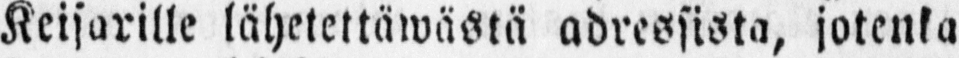Keisarille lähetettäwästä adressista, jotenka
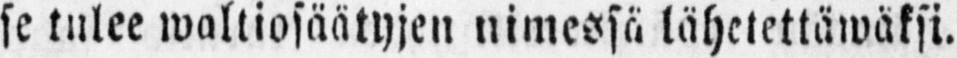se tulee waltiosäätyjen nimessä lähetettäwäksi.
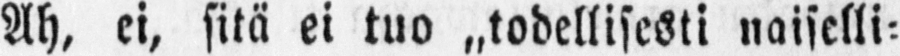Ah, ei, sitä ei tuo ˶todellisesti naiselli-
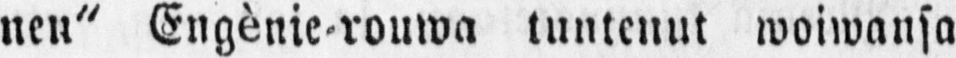nen" Engénie-rouwa tuntenut woiwansa
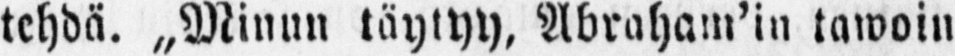tehdä. „Minun täytyy, Abraham'in tawoin
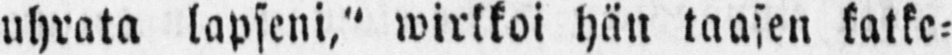uhrata lapseni," wirkkoi hän taasen katke-
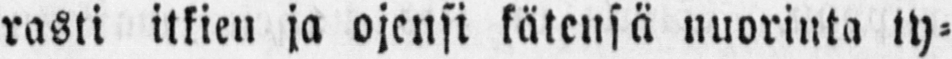rasti itkien ja ojensi kätensä nuorinta ty-
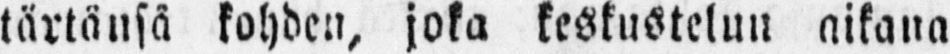tärtänsä kohden, joka keskustelun aikana
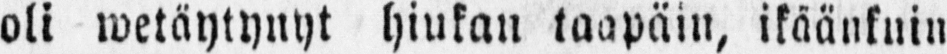oli wetäytynyt hiukan taapäin, ikäänkuin
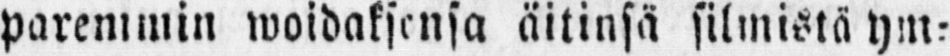paremmin woidaksensa äitinsä silmistä ym-
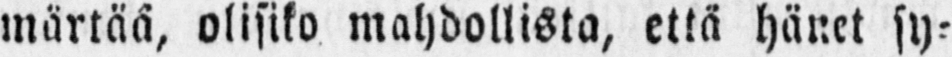märtää, olisiko mahdollista, että hänet sy-
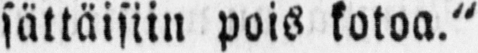sättäisiin pois kotoa."
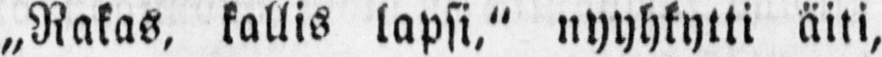„Rakas, kallis lapsi." nyyhkytti äiti,
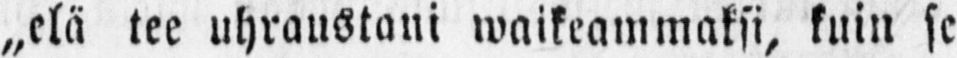„elä tee uhraustani waikeammaksi, kuin se
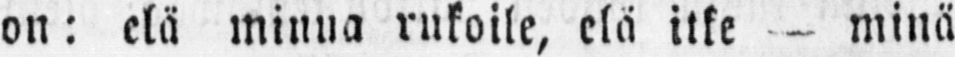on: elä minua rukoile, elä itke - minä
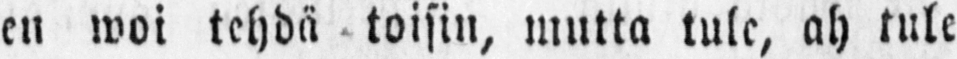en woi tehdä toisin, mutta tule, ah tule
